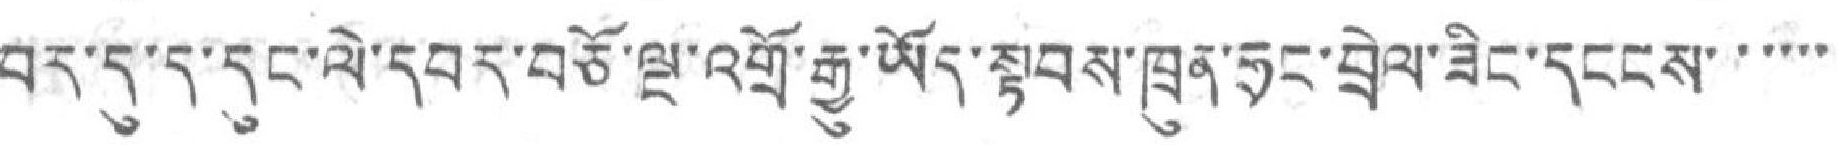བར་དུ་ད་དུང་ལེ་དབར་བཅོ་ལྔ་འགྲོ་རྒྱུ་ཡོད་སྟབས་ཁྲུན་ཧྲང་བྲེལ་ཟིང་དངངས་་་་་་
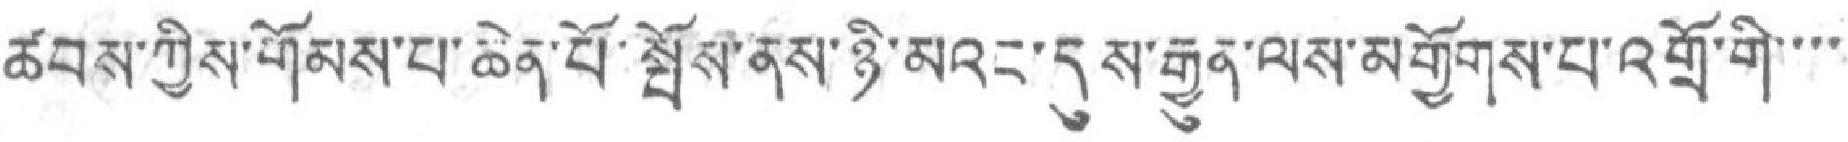ཚབས་ཀྱིས་གོམས་པ་ཆེན་པོ་སྤོས་ནས་ཉི་མའང་དུས་རྒྱུན་ལས་མགྱོགས་པ་འགྲོ་གི་་་་
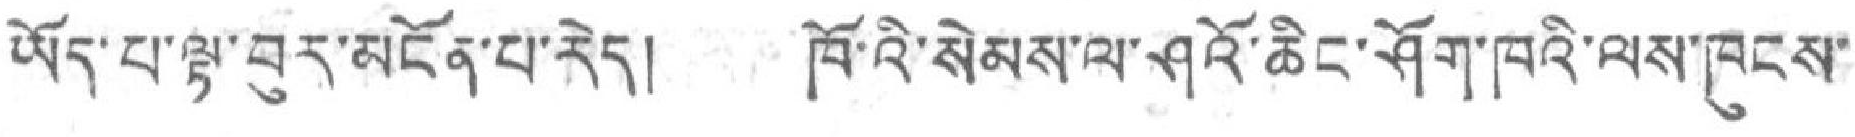ཡོད་པ་ལྟ་བུར་མངོན་པ་རེད། ཁོའི་སེམས་ལ་ཤའོ་ཆིང་ཤོག་ཁའི་ལས་ཁུངས་
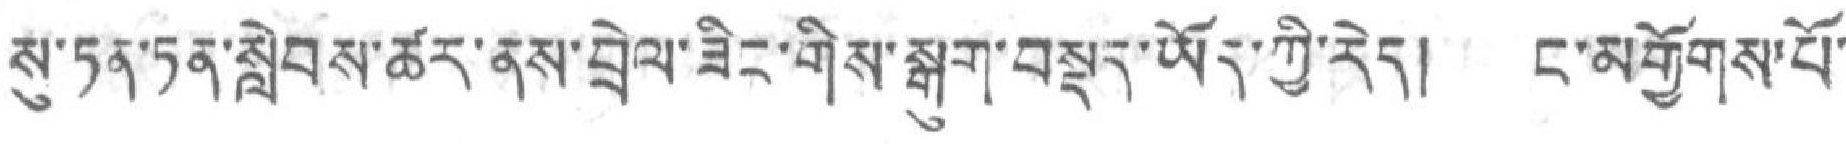སུ་ཏན་ཏན་སླེབས་ཚར་ནས་བྲེལ་ཟིང་གིས་སྒུག་བསྡད་ཡོད་ཀྱི་རེད། ང་མགྱོགས་པོ་
